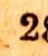28
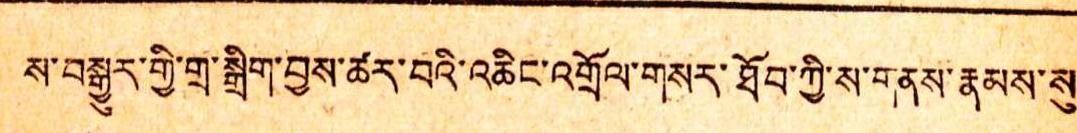ས་བསྒྱུར་གྱི་གྲ་སྒྲིག་བྱས་ཚར་བའི་འཆིང་འགྲོལ་གསར་ཐོབ་ཀྱི་ས་གནས་རྣམས་སུ
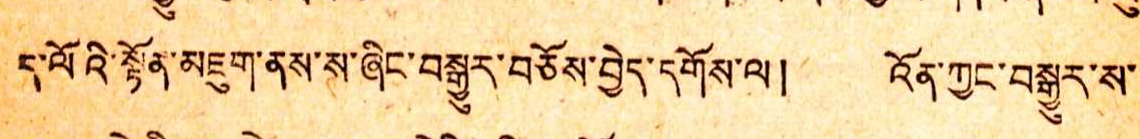ད་ལོའི་སྟོན་མཇུག་ནས་ས་ཞིང་བསྒྱུར་བཅོས་བྱེད་དགོས་ལ ། འོན་ཀྱང་བསྒྱུར་ས་
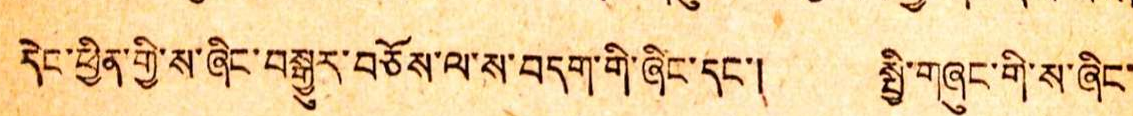དེང་ཕྱིན་གྱི་ས་ཞིང་བསྒྱུར་བཅོས་ལ་ས་བདག་གི་ཞིང་དང་། སྤྱི་གཞུང་གི་ས་ཞིང་
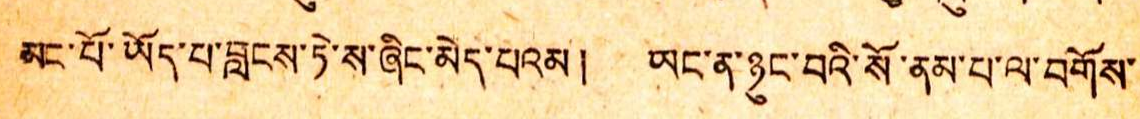མང་པོ་ཡོད་པ་བླངས་ཏེ་ས་ཞིང་མེད་པའམ། ཡང་ན་ཉུང་བའི་སོ་ནམ་པ་ལ་བགོས་
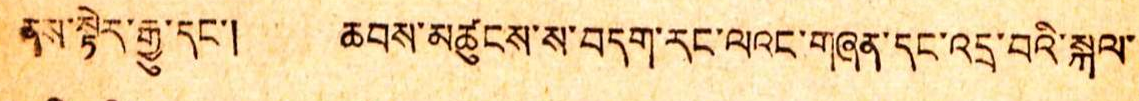ནས་སྟེར་རྒྱུ་དང་། ཆབས་མཚུངས་ས་བདག་རང་ལའང་གཞན་དང་འདྲ་བའི་སྐལ་
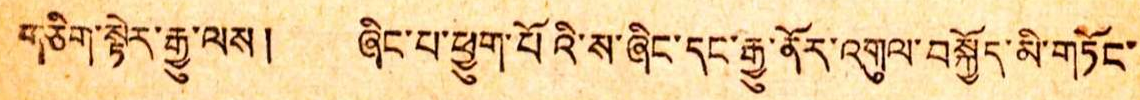གཅིག་སྟེར་རྒྱུ་ལས། ཞིང་པ་ཕྱུག་པོའི་ས་ཞིང་དང་རྒྱུ་ནོར་འགུལ་བསྐྱོད་མི་གཏོང་
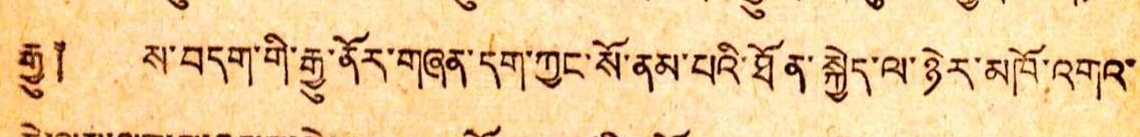རྒྱུ༐ ས་བདག་གི་རྒྱུ་ནོར་གཞན་དག་ཀྱང་སོ་ནས་པའི་ཐོན་སྐྱེད་ལ་ཉེར་མཁོ་འགའ་
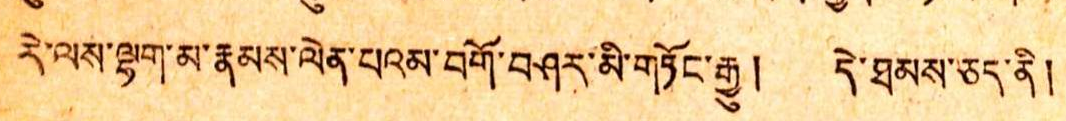རེ་ལས་ལྷག་མ་རྣམས་ལེན་པའམ་བགོ་བཤར་མི་གཏོང་རྒྱུ ། དེ་ཐམས་ཅད་ནི།
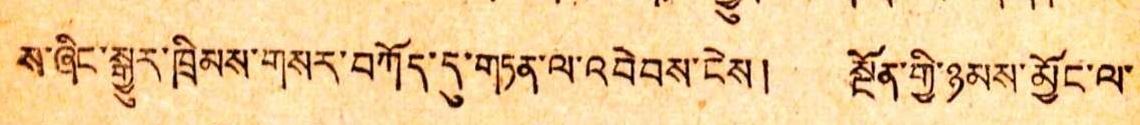ས་ཞིང་སྒྱུར་ཁྲིམས་གསར་བཀོད་དུ་གཏན་ལ་འབེབས་ངེས ། སྔོན་གྱི་ཉམས་མྱོང་ལ་
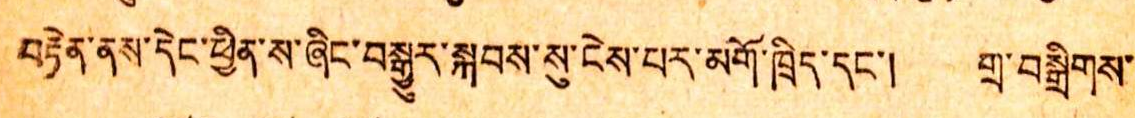བརྟེན་ནས་དེང་ཕྱིན་ས་ཞིང་བསྒྱུར་སྐབས་སུ་ངེས་པར་མགོ་ཁྲིད་དང་། གྲ་བསྒྲིགས་
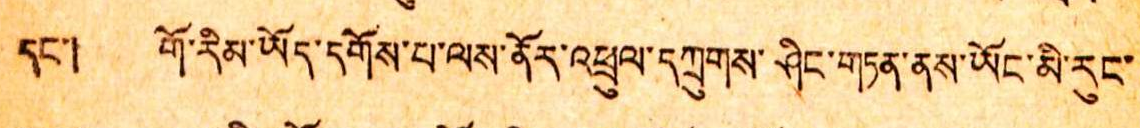དང་། གོ་རིམ་ཡོད་དགོས་པ་ལས་ནོར་འཕྲུལ་དཀྲུགས་ཤིང་གཏན་ནས་ཡོང་མི་རུང་
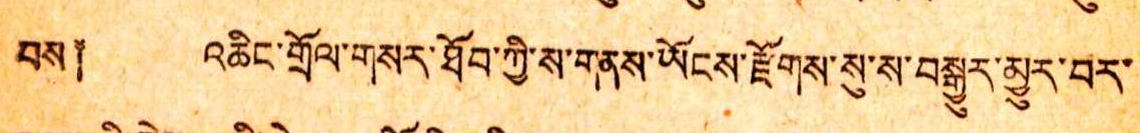བས༐ འཆིང་གྲོལ་གསར་ཐོབ་ཀྱི་ས་གནས་ཡོངས་རྫོགས་སུ་ས་བསྒྱུར་མྱུར་བར་
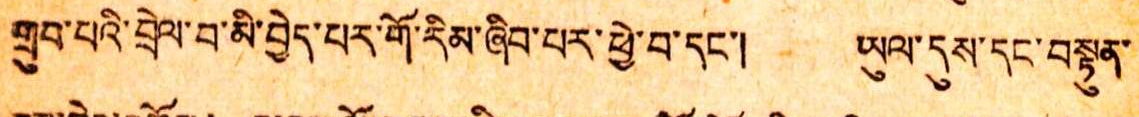གུབ་པའི་བྲེལ་བ་མི་བྱེད་པར་གོ་རིམ་ཞིབ་པར་ཕྱི་བ་དང་། ཡུལ་དུས་དང་བསྟུན
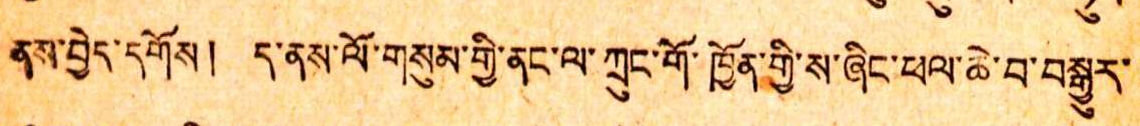ནས་བྱེད་དགོས། ད་ནས་ལོ་གསུམ་གྱི་ནང་ལ་ཀྲུང་གོ་ཁྱོན་གྱི་ས་ཞིང་ཕལ་ཆེ་བ་བསྒྱུར་
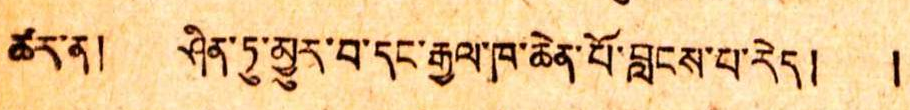ཚར་ན། ཤིན་ཏུ་མྱུར་བ་དང་རྒྱལ་ཁ་ཆེན་པོ་བླངས་པ་རེད ། །
